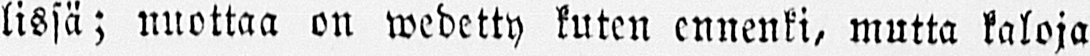lissä; nuottaa on wedetty kuten ennenki, mutta kaloja
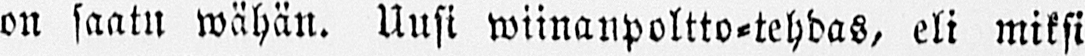on saatu wähän. Uusi wiinanpoltto-tehdas, eli miksi
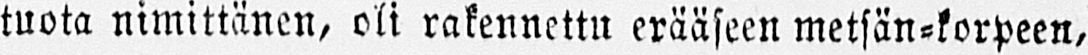tuota nimittänen, oli rakennettu erääseen metsän-korpeen,
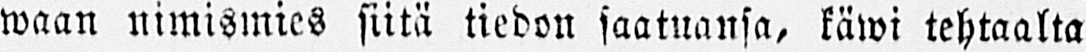waan nimismies siitä tiedon saatuansa, käwi tehtaalta
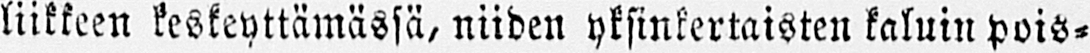liikkeen keskeyttämässä, niiden yksinkertaisten kaluin pois-
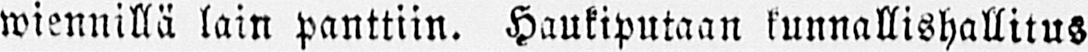wiennillä lain panttiin. Haukiputaan kunnallishallitus
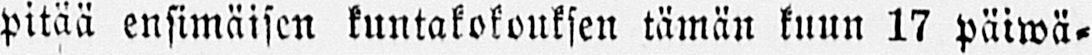pitää ensimäisen kuntakokouksen tämän kuun 17 päiwä-
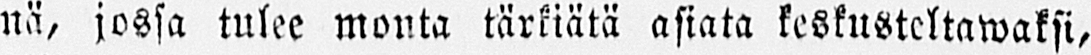nä, jossa tulee monta tärkiätä asiata keskusteltawaksi,
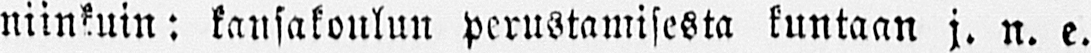niinkuin: kansakoulun perustamisesta kuntaan j. n. e.
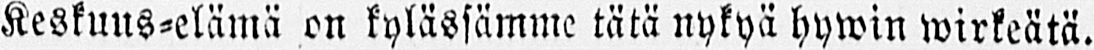Keskuus-elämä on kylässämme tätä nykyä hywin wirkeätä.
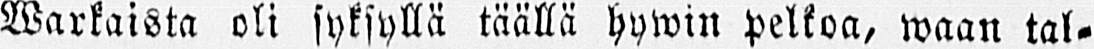Warkaista oli syksyllä täällä hywin pelkoa, waan tal-
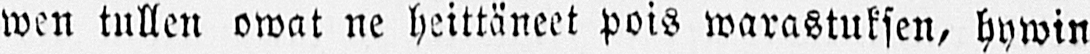wen tullen owat ne heittäneet pois warastuksen, hywin
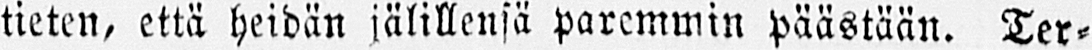tieten, että heidän jälillensä paremmin päästään. Ter-
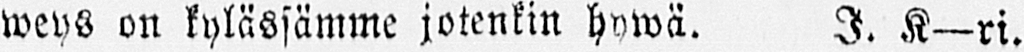weys on kylässämme jotenkin hvwä. I. K—ri.
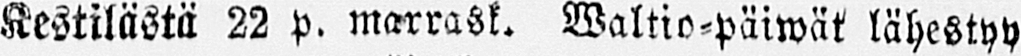Kestilästä 22 p. marrask. Waltio-päiwät lähestyy
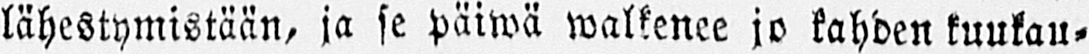lähestymistään, ja se päiwä walkenee jo kahden kuukau-
